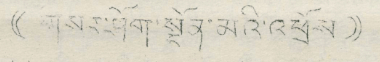(( གསར་ཤོག་སྔོན་མའི་འཕྲོས ))
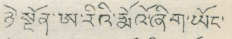ཉེ་སྔོན་ཨ་རིའི་རྨོའོ་ཞིག་ཡོང་
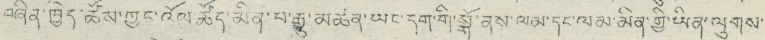བཞིན་ཁྱེད་ཚོས་ཀྱང་འོལ་ཚོད་མིན་པ་རྒྱུ་མཚན་ཡང་དག་གི་སྒོ་ནས་ལམ་དང་ལམ་མིན་གྱི་ཡིན་ལུགས་
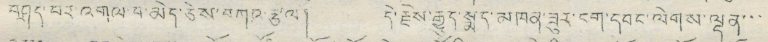བཤད་པར་འགལ་བ་མེད་ཅེས་བཀའ་རྩལ། དེ་རྫས་རྒྱུད་སྨད་མཁན་ཟུར་དག་དབང་ལེགས་ལྡན་་་
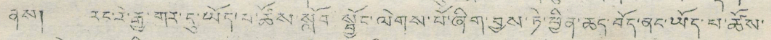ནས། རང་རེ་རྒྱ་གར་དུ་ཡོད་པ་ཚོས་སློབ་སྦྱོང་ལེགས་པོ་ཞིག་བྱས་ཏེ་ཕྱིན་ཆད་བོད་ནང་ཡོད་པ་ཚོས་
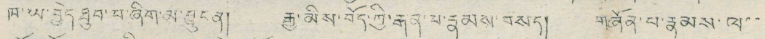ཁ་ཡ་བྱེད་ཐུབ་པ་ཞིག་མ་བྱུང་ན། རྒྱ་མིས་བོད་ཀྱི་རྒན་པ་རྣམས་བསད། གཞོན་པ་རྣམས་ལ་་
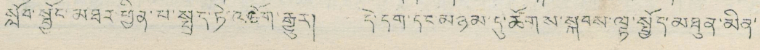སློབ་སྦྱོང་མཐར་ཕྱིན་པ་སྤྲད་ཏེ་འཇོག་རྒྱུར། དེ་དག་དང་མཉམ་དུ་ཚོགས་སྐབས་ལྟ་སྤྱོད་མཐུན་མིན་
